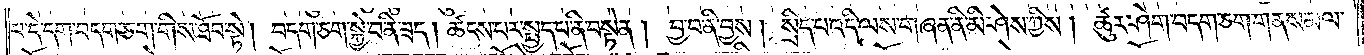པ་དེ་དག་བདག་ཅག་གིས་ཐོབ་སྟེ། བདག་ཅག་སྐྱེ་བ་ནི་ཟད། ཚངས་པར་སྤྱད་པ་ནི་བསྟེན། བྱ་བ་ནི་བྱས། སྲིད་པ་འདི་ལས་གཞན་ནི་མི་ཤེས་ཀྱིས། ཚུར་ཤེག་བདག་ཅག་གནས་མལ་
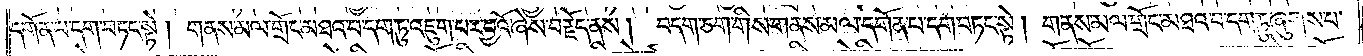དགོན་པ་དག་བཏང་སྟེ། གནས་མལ་གྲོང་མཐའ་བ་དག་ཏུ་འཇུག་པར་བྱའོ་ཞེས་བརྗོད་ནས། བདག་ཅག་གིས་གནས་མལ་དགོན་པ་དག་བཏང་སྟེ། གནས་མལ་གྲོང་མཐའ་བ་དག་ཏུ་ཞུགས་པ་
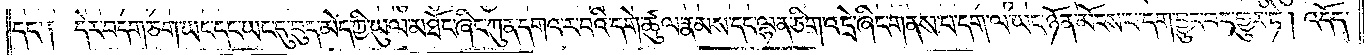དང་༑ དེར་བདག་ཅག་ཡང་དང་ཡང་དུ་བུད་མེད་ཀྱི་ཡུལ་མཐོང་ཞིང་ཀུན་དགའ་ར་བའི་དགེ་ཚུལ་རྣམས་དང་ལྷན་ཅིག་འདྲེ་ཞིང་གནས་པ་དག་ལ་ཡང་ཉོན་མོངས་པ་དག་བྱུང་བར་གྱུར་ཏེ། འདོད་
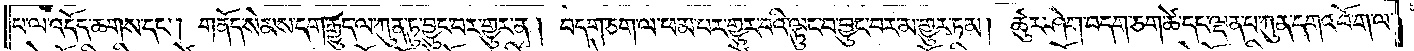པ་ལ་འདོད་ཆགས་དང༌། གནོད་སེམས་དག་རྒྱུད་ལ་ཀུན་ཏུ་བྱུང་བར་གྱུར་ན། བདག་ཅག་ལ་ཕམ་པར་གྱུར་པའི་ལྟུང་བ་བྱུང་བར་མ་གྱུར་ཏམ། ཚུར་ཤེག་བདག་ཅག་ཚེ་དང་ལྡན་པ་ཀུན་དགའ་བོ་ག་ལ་
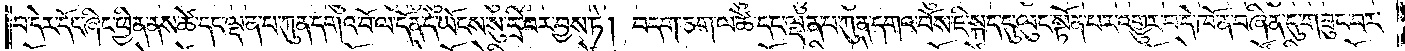བ་དེར་དོང་ཞིང་ཕྱིན་ནས་ཚེ་དང་ལྡན་པ་ཀུན་དགའ་བོ་ལ་དོན་དེ་ཡོངས་སུ་དྲི་བར་བྱས་ཏེ། བདག་ཅག་ལ་ཚེ་དང་ལྡན་པ་ཀུན་དགའ་བོས་ཇི་སྐད་དུ་ལུང་སྟོན་པར་འགྱུར་བ་དེ་ཁོ་ན་བཞིན་དུ་གཟུང་བར་
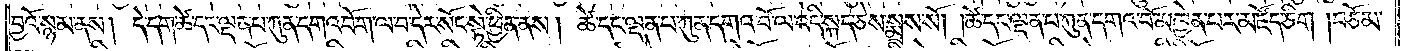བྱའོ་སྙམ་ནས། དེ་དག་ཚེ་དང་ལྡན་པ་ཀུན་དགའ་བོ་ག་ལ་བ་དེར་སོང་སྟེ་ཕྱིན་ནས། ཚེ་དང་ལྡན་པ་ཀུན་དགའ་བོ་ལ་འདི་སྐད་ཅེས་སྨྲས་སོ། །ཚེ་དང་ལྡན་པ་ཀུན་དགའ་བོ་མཁྱེན་པར་མཛོད་ཅིག །བཅོམ་
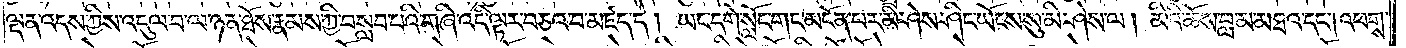ལྡན་འདས་ཀྱིས་འདུལ་བ་ལ་ཉན་ཐོས་རྣམས་ཀྱི་བསླབ་པའི་གཞི་འདི་ལྟར་བཅའ་བ་མཛད་དེ། ཡང་དགེ་སློང་གང་མངོན་པར་མི་ཤེས་ཤིང་ཡོངས་སུ་མི་ཤེས་ལ། མིའི་ཆོས་བླ་མ་མཐའ་དང༌། འཕགས་
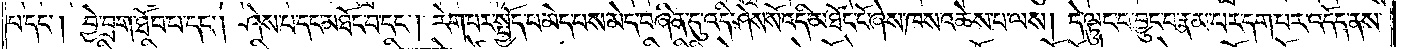པ་དང༌། བྱེ་བྲག་ཐོབ་པ་དང༌། ཤེས་པ་དང་མཐོང་བ་དང༌། རེག་པར་སྤྱོད་པ་མེད་པས་མེད་བཞིན་དུ་འདི་ཤེས་སོ་འདི་མཐོང་ངོ་ཞེས་ཁས་འཆེས་པ་ལས། དེ་ལྟུང་བ་བྱུང་བ་རྣམ་པར་དག་པར་འདོད་ནས་
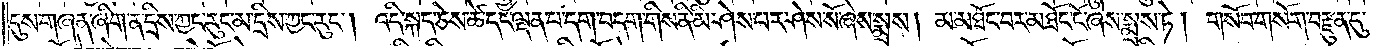དུས་གཞན་ཞིག་ན་དྲིས་ཀྱང་རུང་མ་དྲིས་ཀྱང་རུང༌། འདི་སྐད་ཅེས་ཚེ་དང་ལྡན་པ་དག་བདག་གིས་ནི་མི་ཤེས་པར་ཤེས་སོ་ཞེས་སྨྲས། མ་མཐོང་བར་མཐོང་ངོ་ཞེས་སྨྲས་ཏེ། གསོབ་གསོག་བརྫུན་དུ་
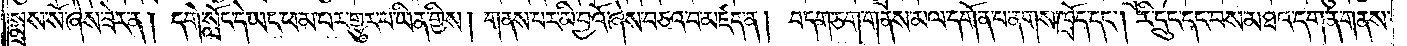སྨྲས་སོ་ཞེས་ཟེར་ན། དགེ་སློང་དེ་ཡང་ཕམ་པར་གྱུར་པ་ཡིན་གྱིས། གནས་པར་མི་བྱའོ་ཞེས་བཅའ་བ་མཛད་ན། བདག་ཅག་གནས་མལ་དགོན་པ་ནགས་ཁྲོད་དང༌། རི་དྲུང་དང་བས་མཐའ་དག་ན་གནས་
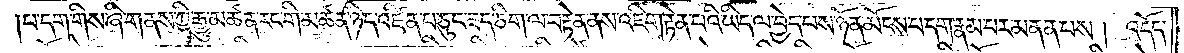།པ་དག་གིས་ཞི་གནས་ཀྱི་རྒྱུ་མཚན་རང་གི་མཚན་ཉིད་འཛིན་པ་ཅུང་ཟད་ཅིག་ལ་བརྟེན་ནས་འཇིག་རྟེན་པའི་ཡིད་ལ་བྱེད་པས་ཉོན་མོངས་པ་དག་རྣམ་པར་མནན་པས། འདོད་
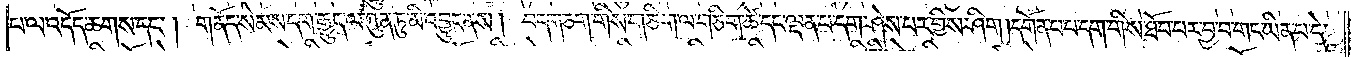པ་ལ་འདོད་ཆགས་དང༌། གནོད་སེམས་དག་རྒྱུད་ལ་ཀུན་ཏུ་མི་འབྱུང་ནས། བདག་ཅག་གིས་གཅིག་ལ་གཅིག་ཚེ་དང་ལྡན་པ་དག་ཤེས་པར་གྱིས་ཤིག །དགོན་པ་པ་དག་གིས་ཐོབ་པར་བྱ་བ་གང་ཡིན་པ་དེ་
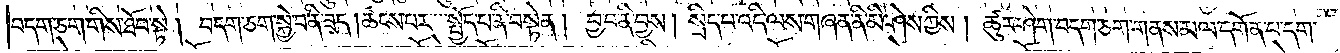བདག་ཅག་གིས་ཐོབ་སྟེ། བདག་ཅག་སྐྱེ་བ་ནི་ཟད། ཚངས་པར་སྤྱོད་པ་ནི་བསྟེན། བྱ་བ་ནི་བྱས། སྲིད་པ་འདི་ལས་གཞན་ནི་མི་ཤེས་ཀྱིས། ཚུར་ཤེག་བདག་ཅག་གནས་མལ་དགོན་པ་དག་
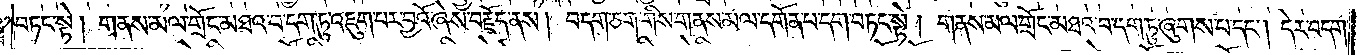བཏང་སྟེ། གནས་མལ་གྲོང་མཐའ་བ་དག་ཏུ་འཇུག་པར་བྱའོ་ཞེས་བརྗོད་ནས། བདག་ཅག་གིས་གནས་མལ་དགོན་པ་དག་བཏང་སྟེ། གནས་མལ་གྲོང་མཐའ་བ་དག་ཏུ་ཞུགས་པ་དང༌། དེར་བདག་
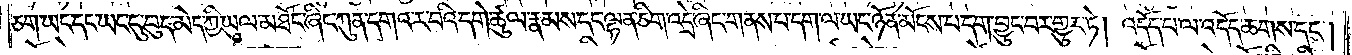ཅག་ཡང་དང་ཡང་དུ་བུད་མེད་ཀྱི་ཡུལ་མཐོང་ཞིང་ཀུན་དགའ་ར་བའི་དགེ་ཚུལ་རྣམས་དང་ལྷན་ཅིག་འདྲེ་ཞིང་གནས་པ་དག་ལ་ཡང་ཉོན་མོངས་པ་དག་བྱུང་བར་གྱུར་ཏེ། འདོད་པ་ལ་འདོད་ཆགས་དང༌།
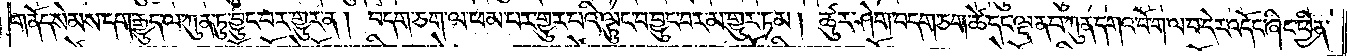གནོད་སེམས་དག་རྒྱུད་ལ་ཀུན་ཏུ་བྱུང་བར་གྱུར་ན། བདག་ཅག་ལ་ཕམ་པར་གྱུར་པའི་ལྟུང་བ་བྱུང་བར་མ་གྱུར་ཏམ། ཚུར་ཤེག་བདག་ཅག་ཚེ་དང་ལྡན་པ་ཀུན་དགའ་བོ་ག་ལ་བ་དེར་འདོང་ཞིང་ཕྱིན་
